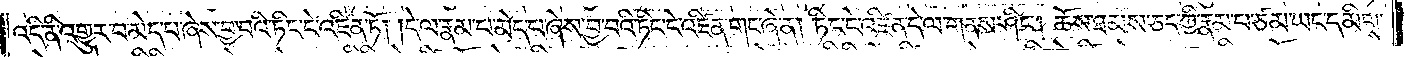འདི་ནི་འགྱུར་བ་མེད་པ་ཞེས་བྱ་བའི་ཏིང་ངེ་འཛིན་ཏོ། །དེ་ལ་རྣམ་པ་མེད་པ་ཞེས་བྱ་བའི་ཏིང་ངེ་འཛིན་གང་ཞེ་ན། ཏིང་ངེ་འཛིན་དེ་ལ་གནས་ཤིང༌། ཆོས་ཐམས་ཅད་ཀྱི་རྣམ་པ་ཙམ་ཡང་དམིགས་
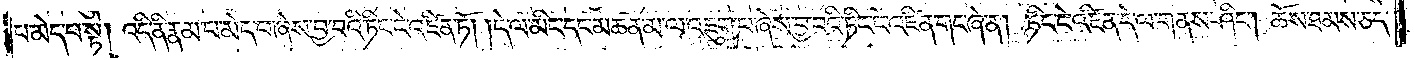པ་མེད་པ་སྟེ། འདི་ནི་རྣམ་པ་མེད་པ་ཞེས་བྱ་བའི་ཏིང་ངེ་འཛིན་ཏོ། །དེ་ལ་མིང་དང་མཚན་མ་ལ་འཇུག་པ་ཞེས་བྱ་བའི་ཏིང་ངེ་འཛིན་གང་ཞེ་ན། ཏིང་ངེ་འཛིན་དེ་ལ་གནས་ཤིང༌། ཆོས་ཐམས་ཅད་
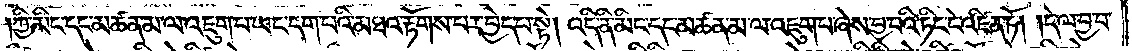ཀྱི་མིང་དང་མཚན་མ་ལ་འཇུག་པ་ཡང་དག་པའི་མཐའ་རྟོགས་པར་བྱེད་པ་སྟེ། འདི་ནི་མིང་དང་མཚན་མ་ལ་འཇུག་པ་ཞེས་བྱ་བའི་ཏིང་ངེ་འཛིན་ཏོ། །དེ་ལ་བྱ་བ་
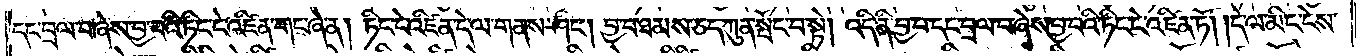དང་བྲལ་བ་ཞེས་བྱ་བའི་ཏིང་ངེ་འཛིན་གང་ཞེ་ན། ཏིང་ངེ་འཛིན་དེ་ལ་གནས་ཤིང༌། བྱ་བ་ཐམས་ཅད་ཀུན་སྤོང་བ་སྟེ། འདི་ནི་བྱ་བ་དང་བྲལ་བ་ཞེས་བྱ་བའི་ཏིང་ངེ་འཛིན་ཏོ། །དེ་ལ་མིང་ངེས་
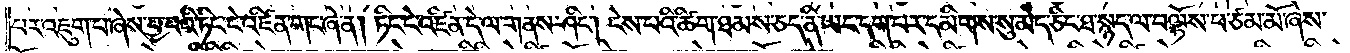པར་འཇུག་པ་ཞེས་བྱ་བའི་ཏིང་ངེ་འཛིན་གང་ཞེ་ན། ཏིང་ངེ་འཛིན་དེ་ལ་གནས་ཤིང༌། ངེས་པའི་ཚིག་ཐམས་ཅད་ནི་ཡང་དག་པར་དམིགས་སུ་མེད་ཅིང་ཐ་སྙད་ལ་བལྟོས་པ་ཙམ་མོ་ཞེས་
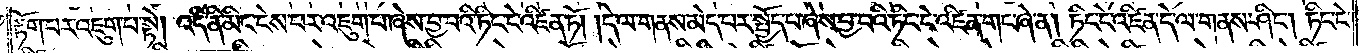རྟོག་པར་འཇུག་པ་སྟེ། འདི་ནི་མིང་ངེས་པར་འཇུག་པ་ཞེས་བྱ་བའི་ཏིང་ངེ་འཛིན་ཏོ། །དེ་ལ་གནས་མེད་པར་སྤྱོད་པ་ཞེས་བྱ་བའི་ཏིང་ངེ་འཛིན་གང་ཞེ་ན། ཏིང་ངེ་འཛིན་དེ་ལ་གནས་ཤིང༌། ཏིང་ངེ་
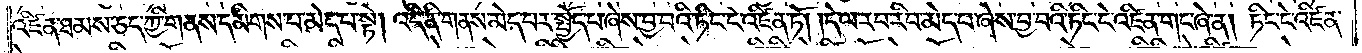འཛིན་ཐམས་ཅད་ཀྱི་གནས་དམིགས་པ་མེད་པ་སྟེ། འདི་ནི་གནས་མེད་པར་སྤྱོད་པ་ཞེས་བྱ་བའི་ཏིང་ངེ་འཛིན་ཏོ། །དེ་ལ་རབ་རིབ་མེད་པ་ཞེས་བྱ་བའི་ཏིང་ངེ་འཛིན་གང་ཞེ་ན། ཏིང་ངེ་འཛིན་
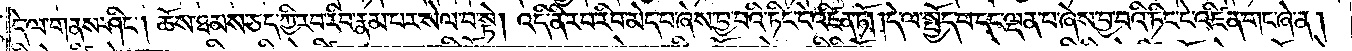དེ་ལ་གནས་ཤིང༌། ཆོས་ཐམས་ཅད་ཀྱི་རབ་རིབ་རྣམ་པར་སེལ་བ་སྟེ། འདི་ནི་རབ་རིབ་མེད་པ་ཞེས་བྱ་བའི་ཏིང་ངེ་འཛིན་ཏོ། །དེ་ལ་སྤྱོད་པ་དང་ལྡན་པ་ཞེས་བྱ་བའི་ཏིང་ངེ་འཛིན་གང་ཞེ་ན།
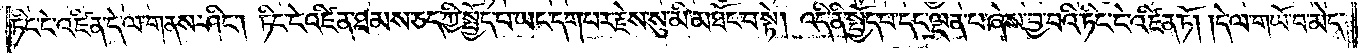ཏིང་ངེ་འཛིན་དེ་ལ་གནས་ཤིང༌། ཏིང་ངེ་འཛིན་ཐམས་ཅད་ཀྱི་སྤྱོད་པ་ཡང་དག་པར་རྗེས་སུ་མི་མཐོང་བ་སྟེ། འདི་ནི་སྤྱོད་པ་དང་ལྡན་པ་ཞེས་བྱ་བའི་ཏིང་ངེ་འཛིན་ཏོ། །དེ་ལ་གཡོ་བ་མེད་
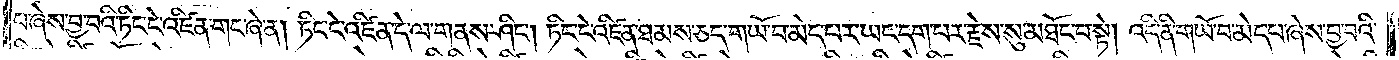པ་ཞེས་བྱ་བའི་ཏིང་ངེ་འཛིན་གང་ཞེ་ན། ཏིང་ངེ་འཛིན་དེ་ལ་གནས་ཤིང༌། ཏིང་ངེ་འཛིན་ཐམས་ཅད་གཡོ་བ་མེད་པར་ཡང་དག་པར་རྗེས་སུ་མཐོང་བ་སྟེ། འདི་ནི་གཡོ་བ་མེད་པ་ཞེས་བྱ་བའི་
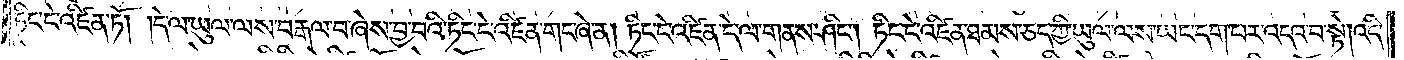ཏིང་ངེ་འཛིན་ཏོ། །དེ་ལ་ཡུལ་ལས་བརྒལ་བ་ཞེས་བྱ་བའི་ཏིང་ངེ་འཛིན་གང་ཞེ་ན། ཏིང་ངེ་འཛིན་དེ་ལ་གནས་ཤིང༌། ཏིང་ངེ་འཛིན་ཐམས་ཅད་ཀྱི་ཡུལ་ལས་ཡང་དག་པར་འདའ་བ་སྟེ། འདི་
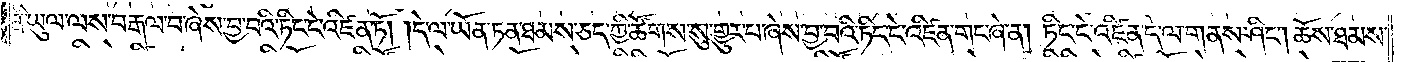ནི་ཡུལ་ལས་བརྒལ་བ་ཞེས་བྱ་བའི་ཏིང་ངེ་འཛིན་ཏོ། །དེ་ལ་ཡོན་ཏན་ཐམས་ཅད་ཀྱི་ཚོགས་སུ་གྱུར་པ་ཞེས་བྱ་བའི་ཏིང་ངེ་འཛིན་གང་ཞེ་ན། ཏིང་ངེ་འཛིན་དེ་ལ་གནས་ཤིང༌། ཆོས་ཐམས་
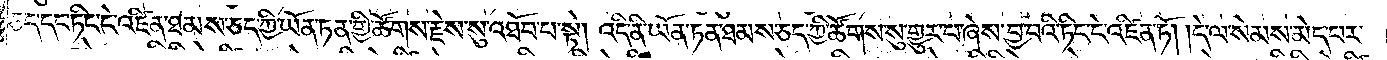ཅད་དང་ཏིང་ངེ་འཛིན་ཐམས་ཅད་ཀྱི་ཡོན་ཏན་གྱི་ཚོགས་རྗེས་སུ་འཐོབ་པ་སྟེ། འདི་ནི་ཡོན་ཏན་ཐམས་ཅད་ཀྱི་ཚོགས་སུ་གྱུར་པ་ཞེས་བྱ་བའི་ཏིང་ངེ་འཛིན་ཏོ། །དེ་ལ་སེམས་མེད་པར་
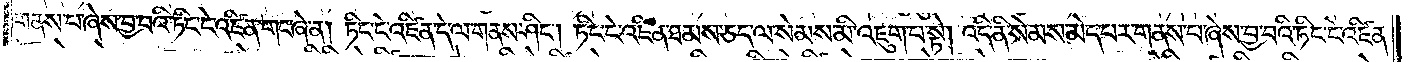གནས་པ་ཞེས་བྱ་བའི་ཏིང་ངེ་འཛིན་གང་ཞེ་ན། ཏིང་ངེ་འཛིན་དེ་ལ་གནས་ཤིང༌། ཏིང་ངེ་འཛིན་ཐམས་ཅད་ལ་སེམས་མི་འཇུག་པ་སྟེ། འདི་ནི་སེམས་མེད་པར་གནས་པ་ཞེས་བྱ་བའི་ཏིང་ངེ་འཛིན་
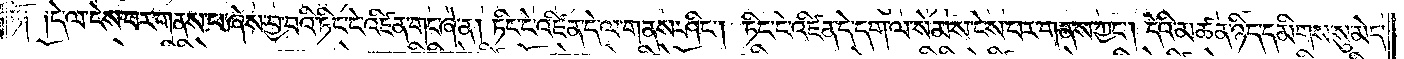ཏོ༑ ༑དེ་ལ་ངེས་པར་གནས་པ་ཞེས་བྱ་བའི་ཏིང་ངེ་འཛིན་གང་ཞེ་ན། ཏིང་ངེ་འཛིན་དེ་ལ་གནས་ཤིང༌། ཏིང་ངེ་འཛིན་དེ་དག་ལ་སེམས་ངེས་པར་གནས་ཀྱང༌། དེའི་མཚན་ཉིད་དམིགས་སུ་མེད་
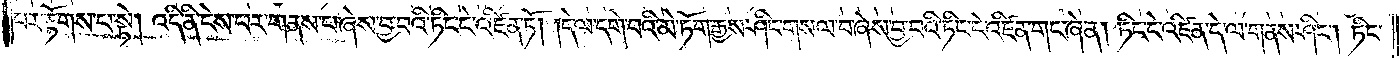པར་རྟོགས་པ་སྟེ། འདི་ནི་ངེས་པར་གནས་པ་ཞེས་བྱ་བའི་ཏིང་ངེ་འཛིན་ཏོ། །དེ་ལ་དགེ་བའི་མེ་ཏོག་རྒྱས་ཤིང་གསལ་བ་ཞེས་བྱ་བའི་ཏིང་ངེ་འཛིན་གང་ཞེ་ན། ཏིང་ངེ་འཛིན་དེ་ལ་གནས་ཤིང༌། ཏིང་
